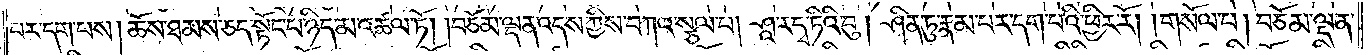པར་དག་པས། ཆོས་ཐམས་ཅད་སྟོང་པ་ཉིད་མ་འཚལ་ཏོ། །བཅོམ་ལྡན་འདས་ཀྱིས་བཀའ་སྩལ་པ། ཤཱ་ར་དྭ་ཏིའི་བུ། ཤིན་ཏུ་རྣམ་པར་དག་པའི་ཕྱིར་རོ། །གསོལ་པ། བཅོམ་ལྡན་
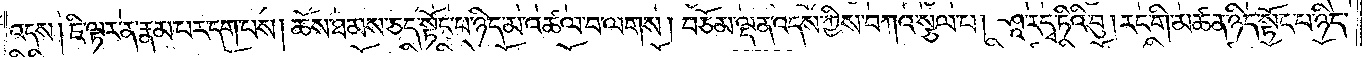འདས། ཇི་ལྟར་ན་རྣམ་པར་དག་པས། ཆོས་ཐམས་ཅད་སྟོང་པ་ཉིད་མ་འཚལ་བ་ལགས། བཅོམ་ལྡན་འདས་ཀྱིས་བཀའ་སྩལ་པ། ཤཱ་ར་དྭ་ཏིའི་བུ། རང་གི་མཚན་ཉིད་སྟོང་པ་ཉིད་
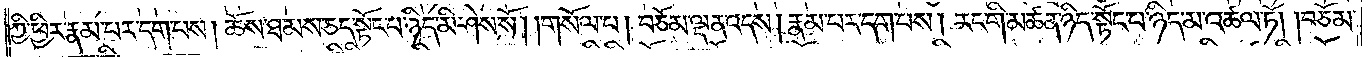ཀྱི་ཕྱིར་རྣམ་པར་དག་པས། ཆོས་ཐམས་ཅད་སྟོང་པ་ཉིད་མི་ཤེས་སོ། །གསོལ་པ། བཅོམ་ལྡན་འདས། རྣམ་པར་དག་པས། རང་གི་མཚན་ཉིད་སྟོང་པ་ཉིད་མ་འཚལ་ཏོ། །བཅོམ་
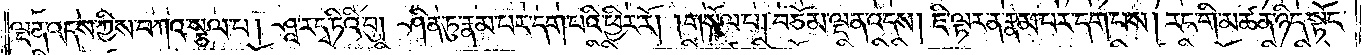ལྡན་འདས་ཀྱིས་བཀའ་སྩལ་པ། ཤཱ་ར་དྭ་ཏིའི་བུ། ཤིན་ཏུ་རྣམ་པར་དག་པའི་ཕྱིར་རོ། །གསོལ་པ། བཅོམ་ལྡན་འདས། ཇི་ལྟར་ན་རྣམ་པར་དག་པས། རང་གི་མཚན་ཉིད་སྟོང་
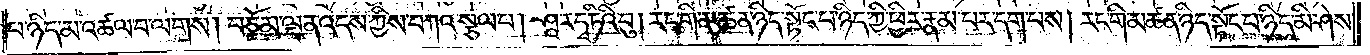པ་ཉིད་མ་འཚལ་བ་ལགས། བཅོམ་ལྡན་འདས་ཀྱིས་བཀའ་སྩལ་པ། ཤཱ་ར་དྭ་ཏིའི་བུ། རང་གི་མཚན་ཉིད་སྟོང་པ་ཉིད་ཀྱི་ཕྱིར་རྣམ་པར་དག་པས། རང་གི་མཚན་ཉིད་སྟོང་པ་ཉིད་མི་ཤེས་
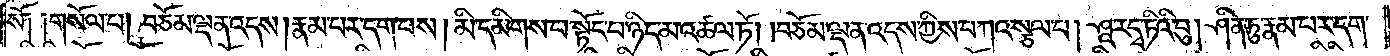སོ༑ ༑གསོལ་པ། བཅོམ་ལྡན་འདས་རྣམ་པར་དག་པས། མི་དམིགས་པ་སྟོང་པ་ཉིད་མ་འཚལ་ཏོ། །བཅོམ་ལྡན་འདས་ཀྱིས་བཀའ་སྩལ་པ། ཤཱ་ར་དྭ་ཏིའི་བུ། ཤིན་ཏུ་རྣམ་པར་དག་
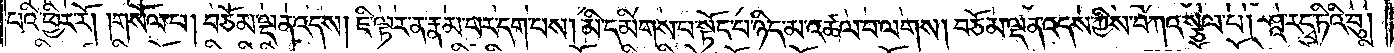པའི་ཕྱིར་རོ། །གསོལ་པ། བཅོམ་ལྡན་འདས། ཇི་ལྟར་ན་རྣམ་པར་དག་པས། མི་དམིགས་པ་སྟོང་པ་ཉིད་མ་འཚལ་བ་ལགས། བཅོམ་ལྡན་འདས་ཀྱིས་བཀའ་སྩལ་པ། ཤཱ་ར་དྭ་ཏིའི་བུ།
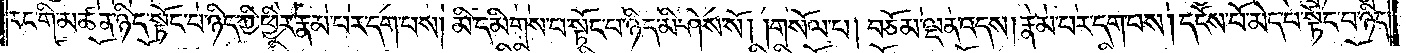རང་གི་མཚན་ཉིད་སྟོང་པ་ཉིད་ཀྱི་ཕྱིར་རྣམ་པར་དག་པས། མི་དམིགས་པ་སྟོང་པ་ཉིད་མི་ཤེས་སོ། །གསོལ་པ། བཅོམ་ལྡན་འདས། རྣམ་པར་དག་པས། དངོས་པོ་མེད་པ་སྟོང་པ་ཉིད་
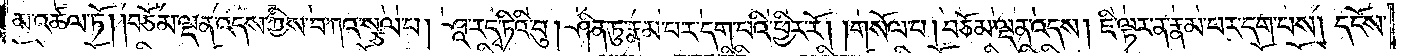མ་འཚལ་ཏོ། །བཅོམ་ལྡན་འདས་ཀྱིས་བཀའ་སྩལ་པ། ཤཱ་ར་དྭ་ཏིའི་བུ། ཤིན་ཏུ་རྣམ་པར་དག་པའི་ཕྱིར་རོ། །གསོལ་པ། བཅོམ་ལྡན་འདས། ཇི་ལྟར་ན་རྣམ་པར་དག་པས། དངོས་
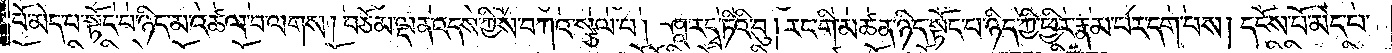པོ་མེད་པ་སྟོང་པ་ཉིད་མ་འཚལ་བ་ལགས། བཅོམ་ལྡན་འདས་ཀྱིས་བཀའ་སྩལ་པ། ཤཱ་ར་དྭ་ཏིའི་བུ། རང་གི་མཚན་ཉིད་སྟོང་པ་ཉིད་ཀྱི་ཕྱིར་རྣམ་པར་དག་པས། དངོས་པོ་མེད་པ་
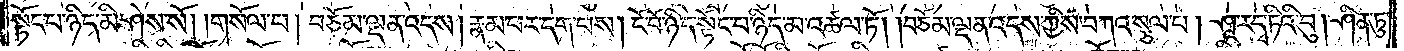སྟོང་པ་ཉིད་མི་ཤེས་སོ། །གསོལ་པ། བཅོམ་ལྡན་འདས། རྣམ་པར་དག་པས། ངོ་བོ་ཉིད་སྟོང་པ་ཉིད་མ་འཚལ་ཏོ། །བཅོམ་ལྡན་འདས་ཀྱིས་བཀའ་སྩལ་པ། ཤཱ་ར་དྭ་ཏིའི་བུ། ཤིན་ཏུ་
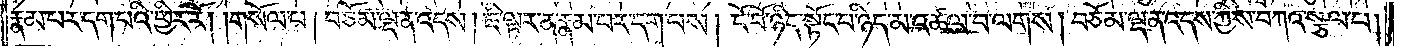རྣམ་པར་དག་པའི་ཕྱིར་རོ། །གསོལ་པ། བཅོམ་ལྡན་འདས། ཇི་ལྟར་ན་རྣམ་པར་དག་པས། ངོ་བོ་ཉིད་སྟོང་པ་ཉིད་མ་འཚལ་བ་ལགས། བཅོམ་ལྡན་འདས་ཀྱིས་བཀའ་སྩལ་པ།
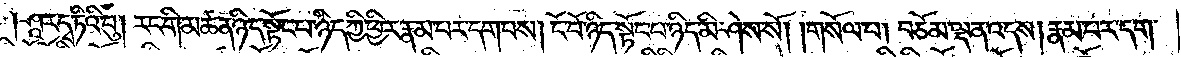ཤཱ་ར་དྭ་ཏིའི་བུ། རང་གི་མཚན་ཉིད་སྟོང་པ་ཉིད་ཀྱི་ཕྱིར་རྣམ་པར་དག་པས། ངོ་བོ་ཉིད་སྟོང་པ་ཉིད་མི་ཤེས་སོ། །གསོལ་པ། བཅོམ་ལྡན་འདས། རྣམ་པར་དག་
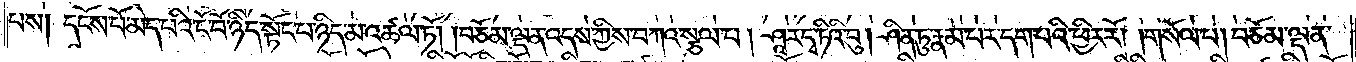པས། དངོས་པོ་མེད་པའི་ངོ་བོ་ཉིད་སྟོང་པ་ཉིད་མ་འཚལ་ཏོ། །བཅོམ་ལྡན་འདས་ཀྱིས་བཀའ་སྩལ་པ། ཤཱ་ར་དྭ་ཏིའི་བུ། ཤིན་ཏུ་རྣམ་པར་དག་པའི་ཕྱིར། །གསོལ་པ། བཅོམ་ལྡན་
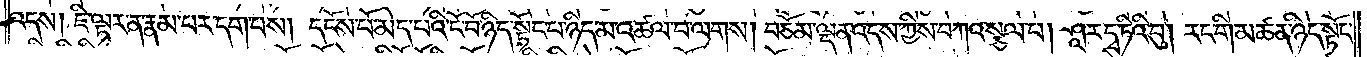འདས། ཇི་ལྟར་ན་རྣམ་པར་དག་པས། དངོས་པོ་མེད་པའི་ངོ་བོ་ཉིད་སྟོང་པ་ཉིད་མ་འཚལ་བ་ལགས། བཅོམ་ལྡན་འདས་ཀྱིས་བཀའ་སྩལ་པ། ཤཱ་ར་དྭ་ཏིའི་བུ། རང་གི་མཚན་ཉིད་སྟོང་
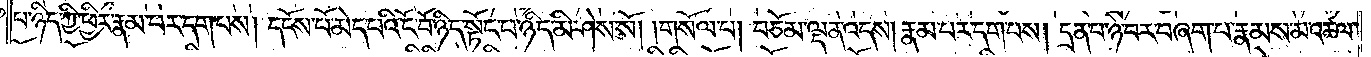པ་ཉིད་ཀྱི་ཕྱིར་རྣམ་པར་དག་པས། དངོས་པོ་མེད་པའི་ངོ་བོ་ཉིད་སྟོང་པ་ཉིད་མི་ཤེས་སོ། །གསོལ་པ། བཅོམ་ལྡན་འདས། རྣམ་པར་དག་པས། དྲན་པ་ཉེ་བར་བཞག་པ་རྣམས་མ་འཚལ་
